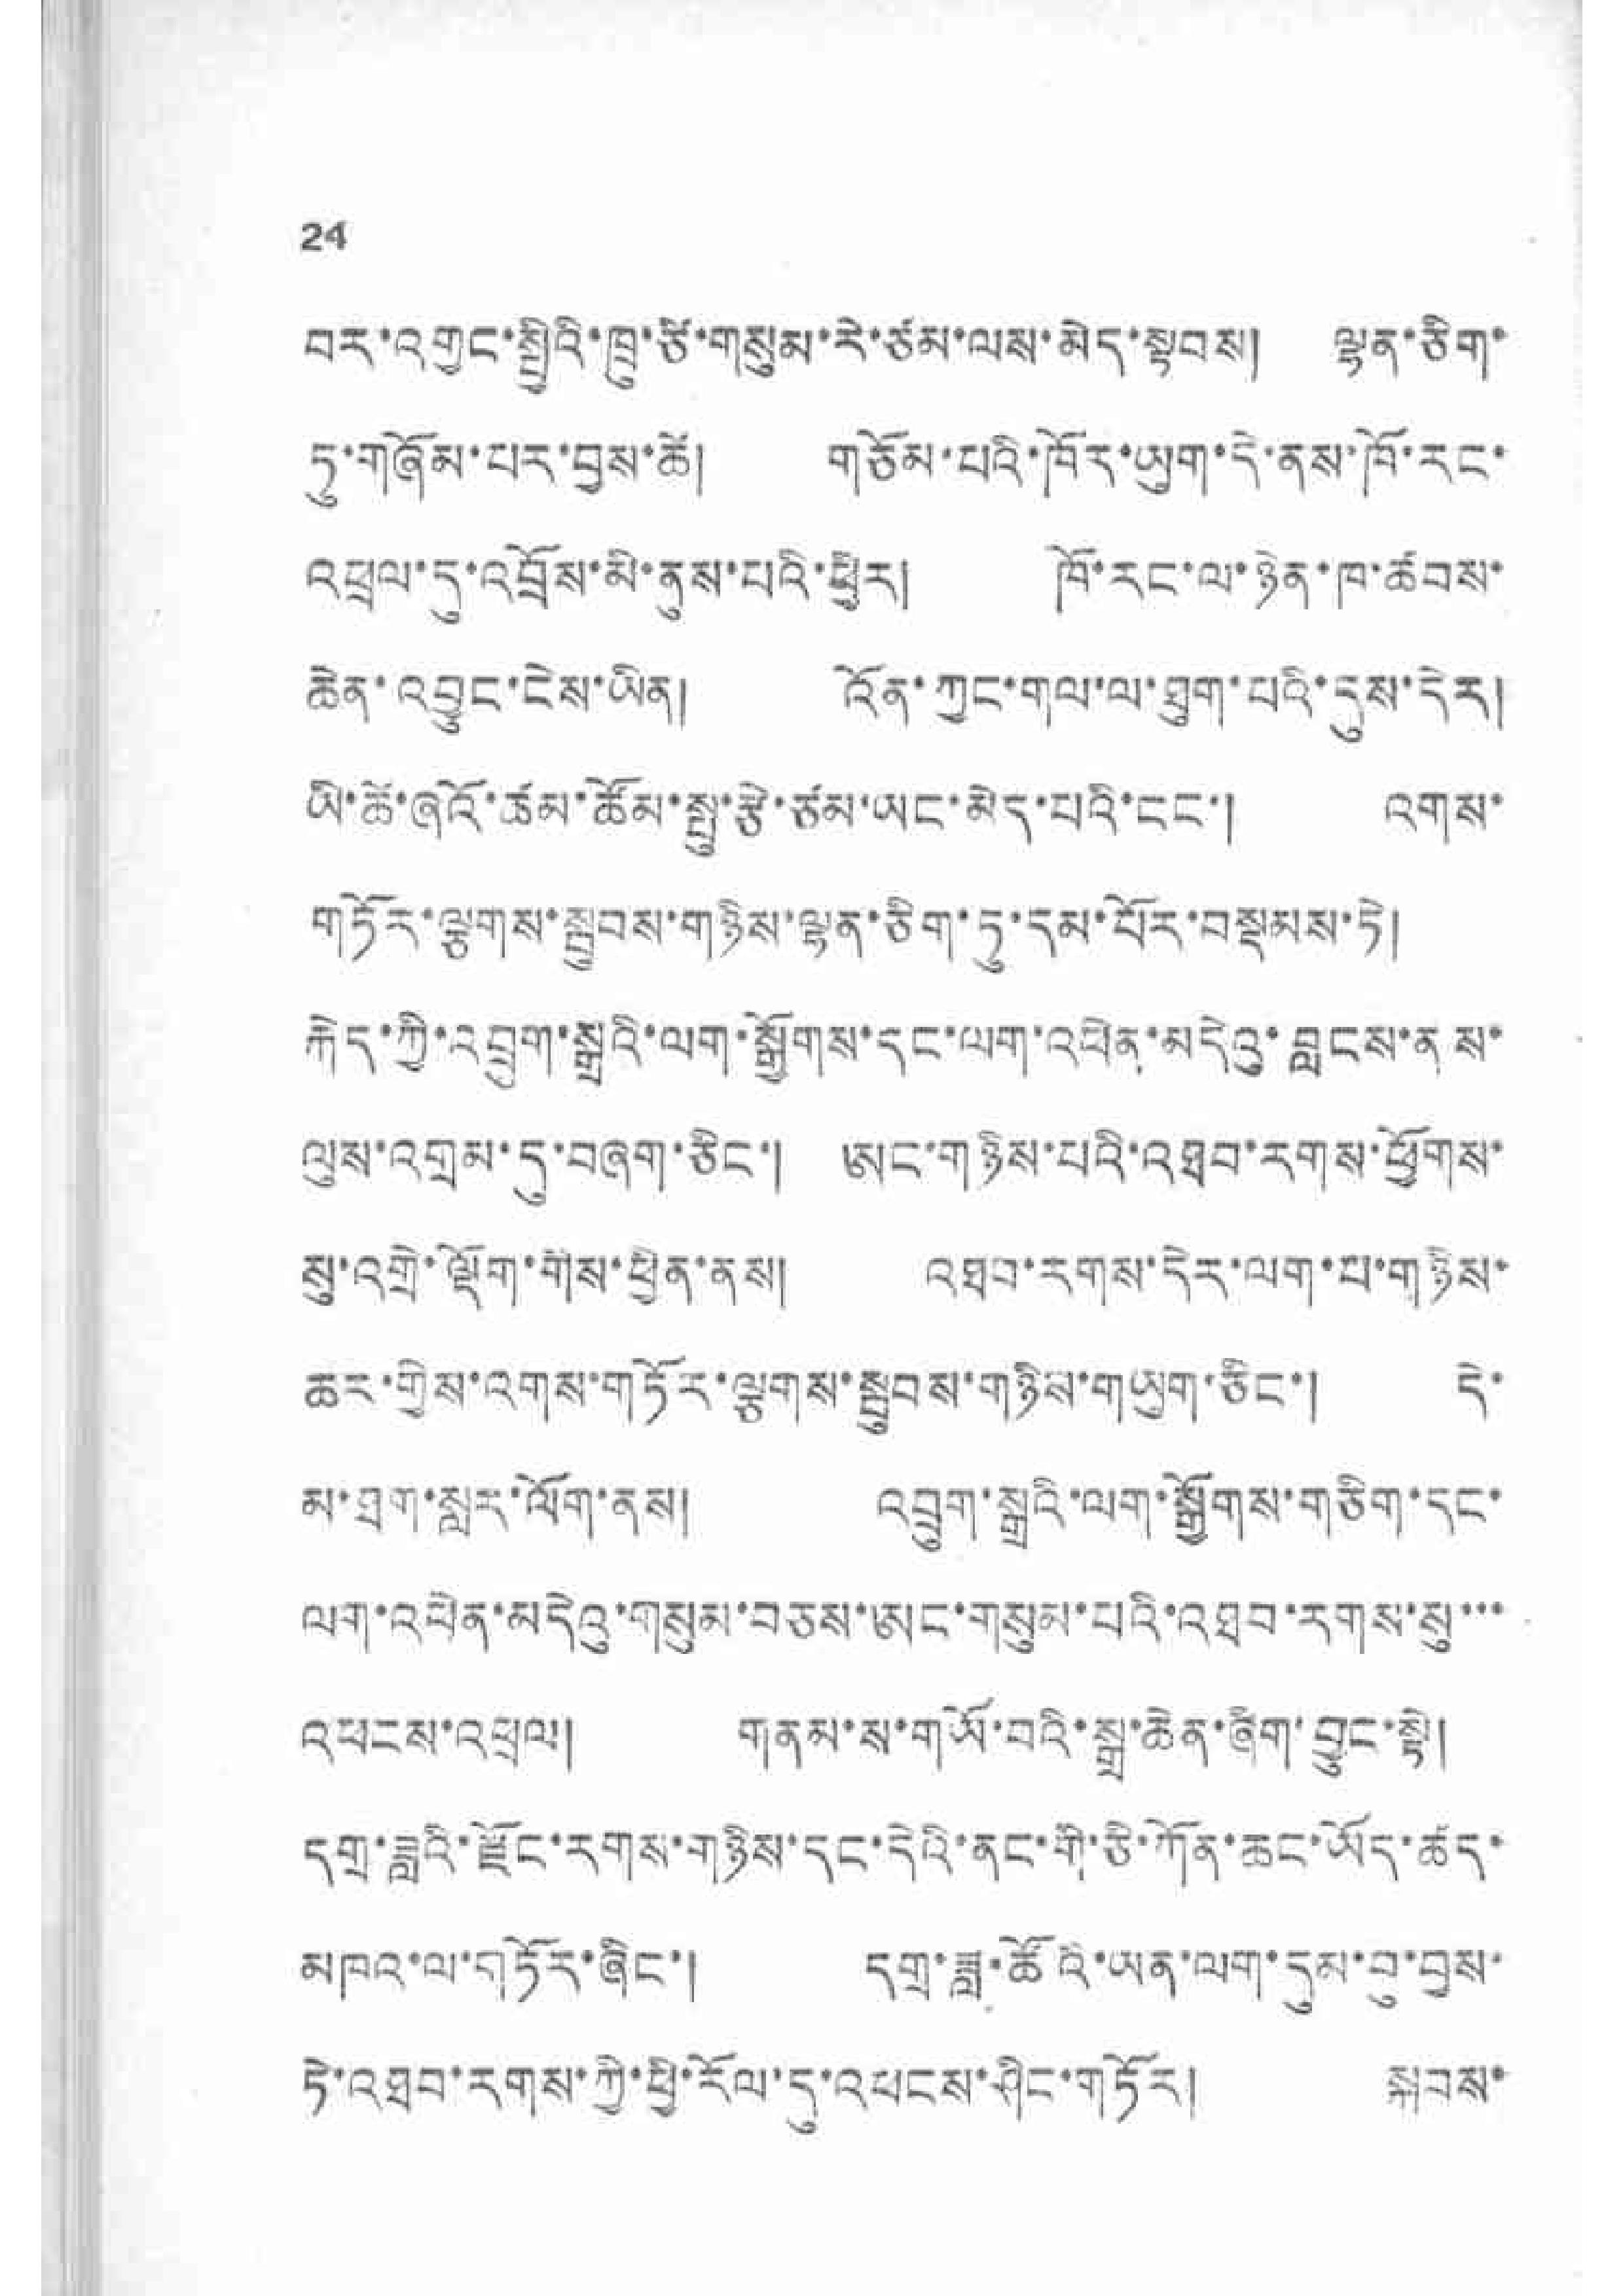24
བར་འགྱང་སྤྱིའི་ཁྲུ་ཙི་གསུམ་རེ་ཙམ་ལས་མེད་སྟབས། ལྷན་ཅིག་
ཏུ་གཞོམ་པར་བྱས་ཚེ། གཅོམ་པའི་ཁོར་ཡུག་དེ་ནས་ཁོ་རང་
འཕྲལ་དུ་འབྲོས་མི་ནུས་པའི་ཕྱིར། ཁོ་རང་ལ་ཉེན་ཁ་ཚབས་
ཆེན་འབྱུང་ངེས་ཡིན། འོན་ཀྱང་གལ་ལ་ཐུག་པའི་དུས་དེར།
ཡི་ཚེ་ཞའོ་ཚམ་ཚོམ་སྤུ་རྩེ་ཙམ་ཡང་མེད་པའི་ངང་། འགས་
གཏོར་ལྕགས་སྦུབས་གཉིས་ལྷན་ཅིག་ཏུ་དམ་པོར་བསྡམས་ཏེ།
རྐྱེད་ཀྱི་འབྲུག་སྐྲུའི་ལག་སྒྲོགས་རང་ལག་འཕོན་མདེའུ་བླངས་ནས་
ལུས་འགྲམ་དུ་བཞག་ཅིང་། ཨང་གཉིས་པའི་འཐབ་རགས་ཕྱོགས་
སུ་འགྲེ་ལྡོག་གིས་ཕྱིན་ནས། འཐབ་དགས་དེར་ལག་པ་གཉིས་
ཆར་གྱིས་འགས་གཏོར་ལྕགས་སྦུབས་གཉིས་གཡུག་ཅིང་། དེ་
མ་ཐག་སླར་ལོག་ནས། འབྲུག་སྒྲུའི་ལག་སྒྱོགས་གཅིག་དང་
ལག་འཕེན་མདེའུ་གསུམ་བཅས་ཨང་གསུམ་པའི་འཐབ་རགས་སུ་་་
འཕངས་འཕྲལ། གནམ་ས་གཡོ་བའི་སྒྲ་ཆེན་ཞིག་བྱུང་སྟེ།
དགྲ་ཟླའི་རྫོང་རགས་གཉིས་དང་དེའི་ནང་གི་ཅི་ཀོན་ཆང་ཡོད་ཚད་
མཁའ་ལ་གཏོར་ཞིང་། དགྲ་ཟླ་ཚོའ་ཡན་ལག་དུམ་བུ་བྱས་
ཏེ་འཐབ་རགས་ཀྱི་ཕྱི་རོལ་དུ་འཕངས་ཤིང་གཏོར། སྐབས་
